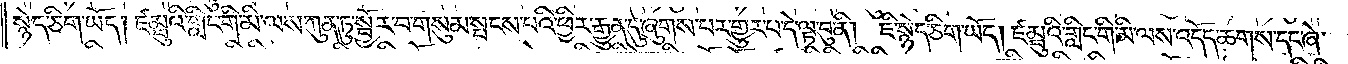སྙེད་ཅིག་ཡོད། ཛམྦུའི་གླིང་གི་མི་ལས་ཀུན་ཏུ་སྦྱོར་བ་གསུམ་སྤངས་པའི་ཕྱིར་རྒྱུན་དུ་ཞུགས་པར་གྱུར་པ་དེ་ལྟ་བུ་ནི། ཇི་སྙེད་ཅིག་ཡོད། ཛམྦུའི་གླིང་གི་མི་ལས་འདོད་ཆགས་དང་ཞེ་
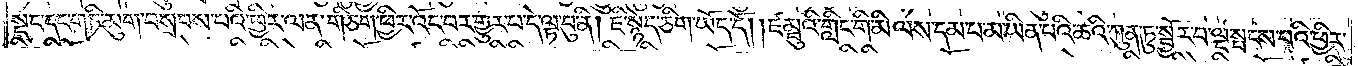སྡང་དང་གཏི་མུག་བསྲབས་པའི་ཕྱིར་ལན་གཅིག་ཕྱིར་འོང་བར་གྱུར་པ་དེ་ལྟ་བུ་ནི། ཇི་སྙེད་ཅིག་ཡོད་དོ། ཛམྦུའི་གླིང་གི་མི་ལས་དམ་པ་མ་ཡིན་པའི་ཆའི་ཀུན་ཏུ་སྦྱོར་བ་ལྔ་སྤངས་པའི་ཕྱིར་
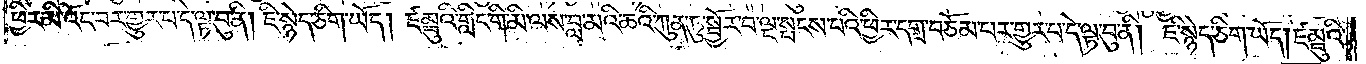ཕྱིར་མི་འོང་བར་གྱུར་པ་དེ་ལྟ་བུ་ནི། ཇི་སྙེད་ཅིག་ཡོད། ཛམྦུའི་གླིང་གི་མི་ལས་བླ་མའི་ཆའི་ཀུན་ཏུ་སྦྱོར་བ་ལྔ་སྤངས་པའི་ཕྱིར་དགྲ་བཅོམ་པར་གྱུར་པ་དེ་ལྟ་བུ་ནི། ཇི་སྙེད་ཅིག་ཡོད། ཛམྦུའི་
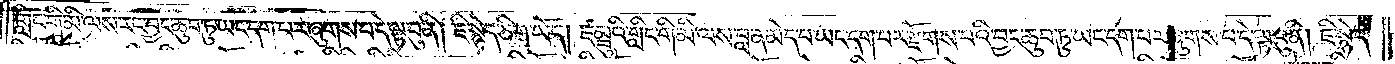གླིང་གི་མི་ལས་རང་བྱང་ཆུབ་ཏུ་ཡང་དག་པར་ཞུགས་པ་དེ་ལྟ་བུ་ནི། ཇི་སྙེད་ཅིག་ཡོད། ཛམྦུའི་གླིང་གི་མི་ལས་བླ་ན་མེད་པ་ཡང་དག་པར་རྫོགས་པའི་བྱང་ཆུབ་ཏུ་ཡང་དག་པར་ཞུགས་པ་དེ་ལྟ་བུ་ནི། ཇི་སྙེད་
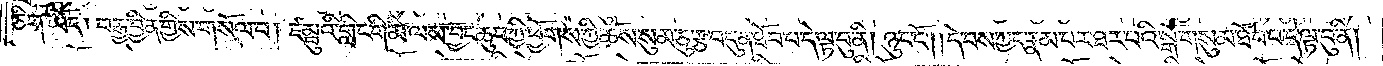ཅིག་ཡོད། བརྒྱ་བྱིན་གྱིས་གསོལ་པ། ཛམྦུའི་གླིང་གི་མི་ལས་བྱང་ཆུབ་ཀྱི་ཕྱོགས་ཀྱི་ཆོས་སུམ་ཅུ་རྩ་བདུན་ཐོབ་པ་དེ་ལྟ་བུ་ནི། ཉུང་ངོ༌། །དེ་བས་ཀྱང་རྣམ་པར་ཐར་པའི་སྒོ་གསུམ་ཐོབ་པ་དེ་ལྟ་བུ་ནི།
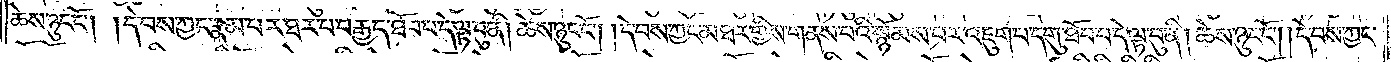ཆེས་ཉུང་ངོ༌། །དེ་བས་ཀྱང་རྣམ་པར་ཐར་པ་བརྒྱད་ཐོབ་པ་དེ་ལྟ་བུ་ནི། ཆེས་ཉུང་ངོ༌། །དེ་བས་ཀྱང་མཐར་གྱིས་གནས་པའི་སྙོམས་པར་འཇུག་པ་དགུ་ཐོབ་པ་དེ་ལྟ་བུ་ནི། ཆེས་ཉུང་ངོ༌། །དེ་བས་ཀྱང་
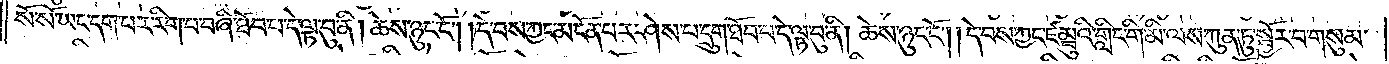སོ་སོ་ཡང་དག་པར་རིག་པ་བཞི་ཐོབ་པ་དེ་ལྟ་བུ་ནི། ཆེས་ཉུང་ངོ༌། །དེ་བས་ཀྱང་མངོན་པར་ཤེས་པ་དྲུག་ཐོབ་པ་དེ་ལྟ་བུ་ནི། ཆེས་ཉུང་ངོ༌། །དེ་བས་ཀྱང་ཛམྦུའི་གླིང་གི་མི་ལས་ཀུན་ཏུ་སྦྱོར་བ་གསུམ་
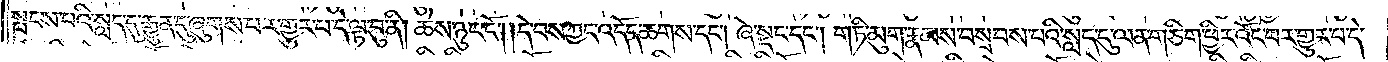སྤངས་པའི་སླད་དུ་རྒྱུན་དུ་ཞུགས་པར་གྱུར་པ་དེ་ལྟ་བུ་ནི། ཆེས་ཉུང་ངོ༌། །དེ་བས་ཀྱང་འདོད་ཆགས་དང༌། ཞེ་སྡང་དང༌། གཏི་མུག་རྣམས་བསྲབས་པའི་སླད་དུ་ལན་ཅིག་ཕྱིར་འོང་བར་གྱུར་པ་དེ་
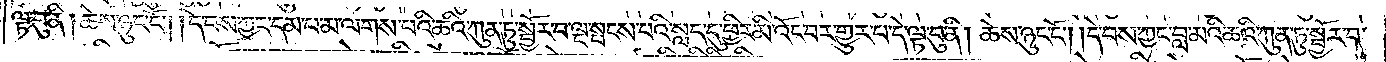ལྟ་བུ་ནི། ཆེས་ཉུང་ངོ༌། །དེ་བས་ཀྱང་དམ་པ་མ་ལགས་པའི་ཆའི་ཀུན་ཏུ་སྦྱོར་བ་ལྔ་སྤངས་པའི་སླད་དུ་ཕྱིར་མི་འོང་བར་གྱུར་པ་དེ་ལྟ་བུ་ནི། ཆེས་ཉུང་ངོ༌། །དེ་བས་ཀྱང་བླ་མའི་ཆའི་ཀུན་ཏུ་སྦྱོར་བ་
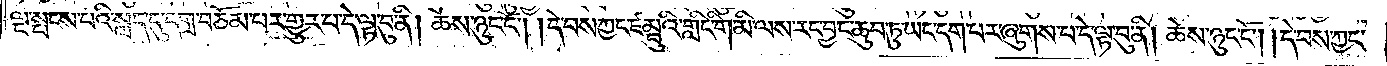ལྔ་སྤངས་པའི་སླད་དུ་དགྲ་བཅོམ་པར་གྱུར་པ་དེ་ལྟ་བུ་ནི། ཆེས་ཉུང་ངོ༌། །དེ་བས་ཀྱང་ཛམྦུའི་གླིང་གི་མི་ལས་རང་བྱང་ཆུབ་ཏུ་ཡང་དག་པར་ཞུགས་པ་དེ་ལྟ་བུ་ནི། ཆེས་ཉུང་ངོ༌། །དེ་བས་ཀྱང་
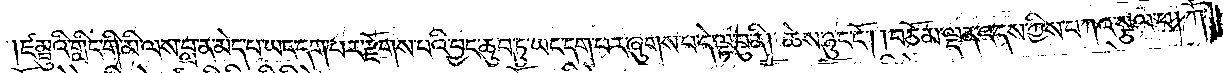ཛམྦུའི་གླིང་གི་མི་ལས་བླ་ན་མེད་པ་ཡང་དག་པར་རྫོགས་པའི་བྱང་ཆུབ་ཏུ་ཡང་དག་པར་ཞུགས་པ་དེ་ལྟ་བུ་ནི། ཆེས་ཉུང་ངོ༌། །བཅོམ་ལྡན་འདས་ཀྱིས་བཀའ་སྩལ་པ། ཀཽ་
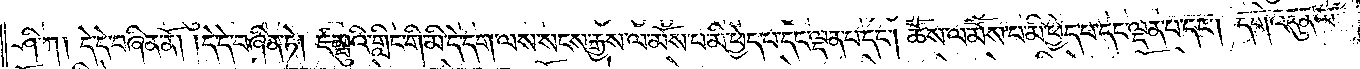ཤི་ཀ། དེ་དེ་བཞིན་ནོ། །དེ་དེ་བཞིན་ཏེ། ཛམྦུའི་གླིང་གི་མེ་དེ་དག་ལས་སངས་རྒྱས་ལ་མོས་པ་མི་ཕྱེད་པ་དང་ལྡན་པ་དང༌། ཆོས་ལ་མོས་པ་མི་ཕྱེད་པ་དང་ལྡན་པ་དང༌། དགེ་འདུན་ལ་
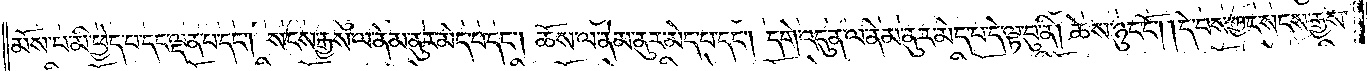མོས་པ་མི་ཕྱེད་པ་དང་ལྡན་པ་དང༌། སངས་རྒྱས་ལ་ནེམ་ནུར་མེད་པ་དང༌། ཆོས་ལ་ནེམ་ནུར་མེད་པ་དང༌། དགེ་འདུན་ལ་ནེམ་ནུར་མེད་པ་དེ་ལྟ་བུ་ནི། ཆེས་ཉུང་ངོ༌། །དེ་བས་ཀྱང་སངས་རྒྱས་
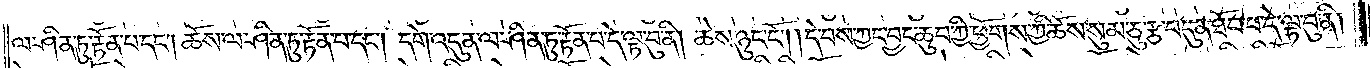ལ་ཤིན་ཏུ་རྟོན་པ་དང༌། ཆོས་ལ་ཤིན་ཏུ་རྟོན་པ་དང༌། དགེ་འདུན་ལ་ཤིན་ཏུ་རྟོན་པ་དེ་ལྟ་བུ་ནི། ཆེས་ཉུང་ངོ༌། །དེ་བས་ཀྱང་བྱང་ཆུབ་ཀྱི་ཕྱོགས་ཀྱི་ཆོས་སུམ་ཅུ་རྩ་བདུན་ཐོབ་པ་དེ་ལྟ་བུ་ནི།
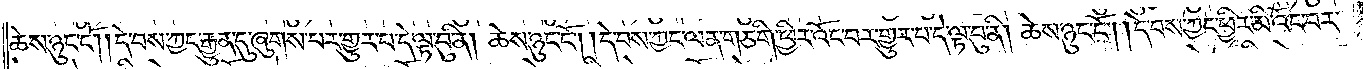ཆེས་ཉུང་ངོ༌། །དེ་བས་ཀྱང་རྒྱུན་དུ་ཞུགས་པར་གྱུར་པ་དེ་ལྟ་བུ་ནི། ཆེས་ཉུང་ངོ༌། །དེ་བས་ཀྱང་ལན་གཅིག་ཕྱིར་འོང་བར་གྱུར་པ་དེ་ལྟ་བུ་ནི། ཆེས་ཉུང་ངོ༌། །དེ་བས་ཀྱང་ཕྱིར་མ་འོང་བར་
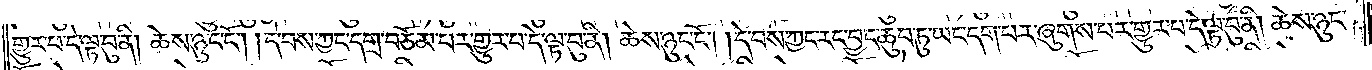གྱུར་བ་དེ་ལྟ་བུ་ནི། ཆེས་ཉུང་ངོ༌། །དེ་བས་ཀྱང་དགྲ་བཅོམ་པར་གྱུར་པ་དེ་ལྟ་བུ་ནི། ཆེས་ཉུང་ངོ༌། །དེ་བས་ཀྱང་རང་བྱང་ཆུབ་ཏུ་ཡང་དག་པར་ཞུགས་པར་གྱུར་པ་དེ་ལྟ་བུ་ནི། ཆེས་ཉུང་
